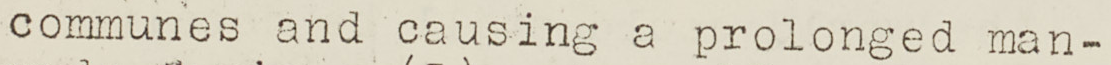communes and causing a prolonged man-
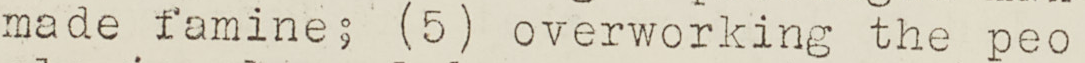made famine; (5) overworking the peo
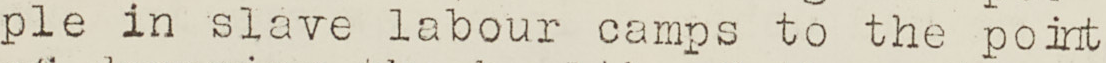ple in slave labour camps to the point
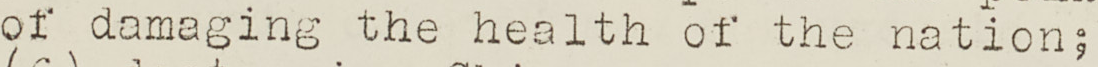of damaging the health of the nation;
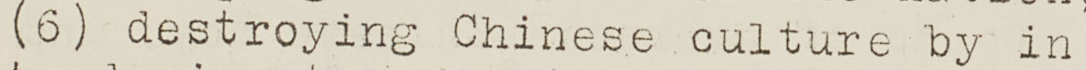6) destroying Chinese culture by in
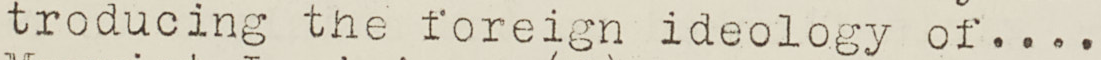troducing the foreign ideology of ....
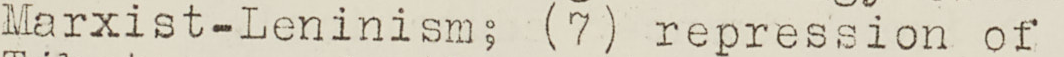Marxist-Leninism; (7) repression of
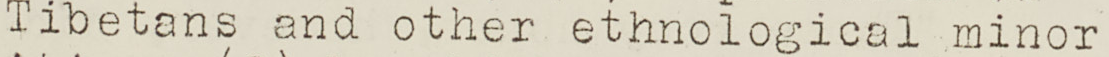Tibetans and other ethnological minor
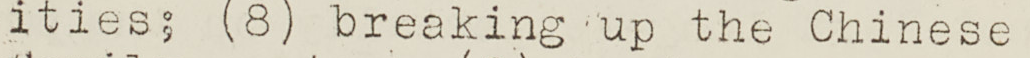ities; (8) breaking up the Chinese
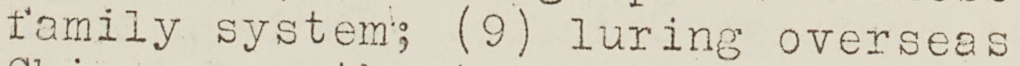amily system; (9) luring overseas
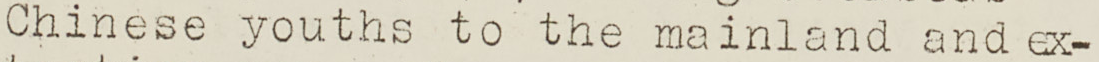Chinese youths to the mainland and ex-
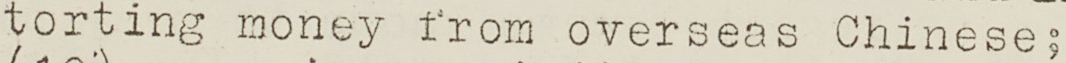torting money from overseas Chinese;
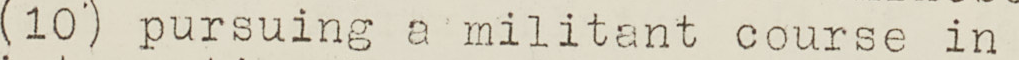(10) pursuing militant course in
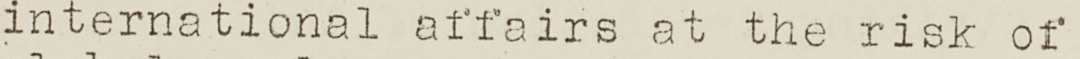international affairs at the risk of
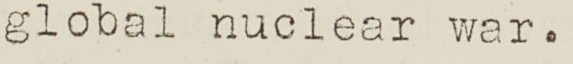global nuclear war.
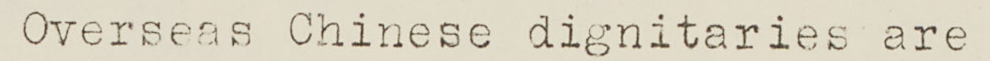Overseas Chinese dignitaries are
